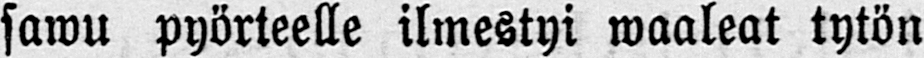sawu pyörteelle ilmestyi waaleat tytön
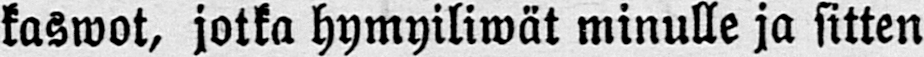kaswot, jotka hymyiliwät minulle ja sitten
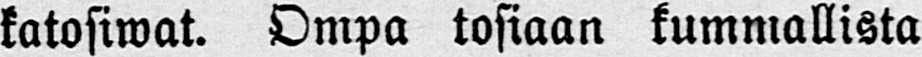katosiwat. Ompa tosiaan kummallista
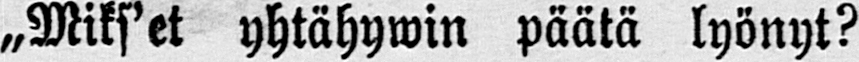„Miks'et yhtähywin päätä lyönyt?
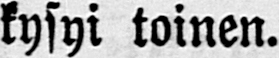kysyi toinen.
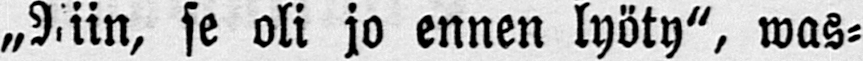„Niin, se oli jo ennen lyöty", was-
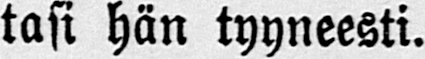tasi hän tyyneesti.
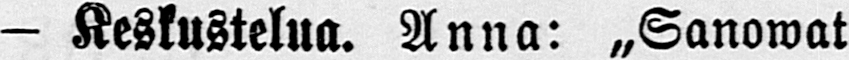— Keskustelua. Anna: „Sanowat
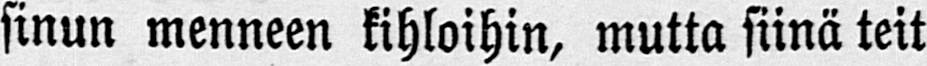sinun menneen kihloihin, mutta siinä teit
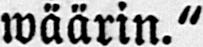wäärin."
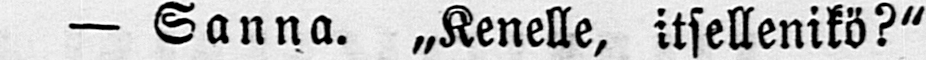— Sanna. „Kenelle, itsellenikö?"
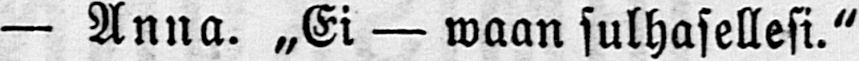— Anna. „Ei — waan sulhasellesi."
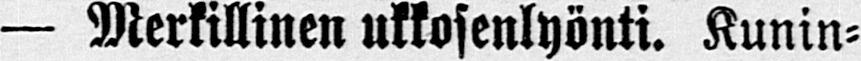— Merkillinen ukkosenlyönti. Kunin-
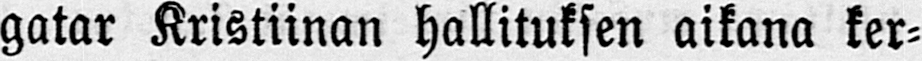gatar Kristiinan hallituksen aikana ker-
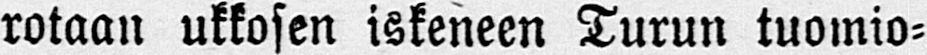rotaan ukkosen iskeneen Turun tuomio-
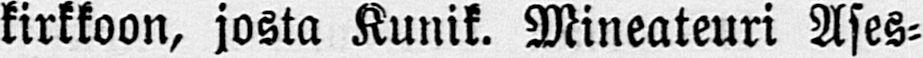kirkkoon, josta Kunik. Mineateuri Ases-
